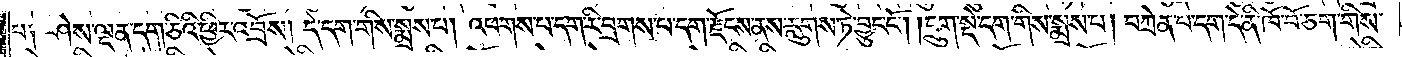པ༑ ཤེས་ལྡན་དག་ཅིའི་ཕྱིར་འབྲོས། དེ་དག་གིས་སྨྲས་པ། འཕགས་པ་དག་རི་བྲགས་པ་དག་རྫོངས་ནས་རླུགས་ཏེ་བྱུང་ངོ༌། །དྲུག་སྡེ་དག་གིས་སྨྲས་པ། བཀྲེན་པ་དག་དེ་ནི་ཁོ་བོ་ཅག་གིས་
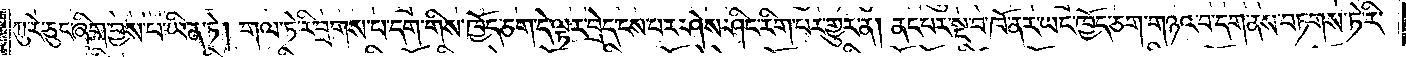ཀུ་རེ་ཅུང་ཞིག་བྱས་པ་ཡིན་ཏེ། གལ་ཏེ་རི་བྲགས་པ་དག་གིས་ཁྱོད་ཅག་དེ་ལྟར་བྲེད་ངས་པར་ཤེས་ཤིང་རིག་པར་གྱུར་ན། ནང་པར་སྔ་བ་ཁོ་ནར་ཡང་ཁྱོད་ཅག་གཉའ་བ་དག་ནས་བཏགས་ཏེ་རི་
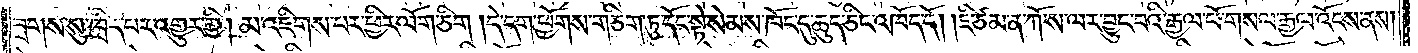བྲགས་སུ་ཁྲིད་པར་འགྱུར་གྱི། མ་འཇིགས་པར་ཕྱིར་ལོག་ཅིག །དེ་དག་ཕྱོགས་གཅིག་ཏུ་དོང་སྟེ་སེམས་ཁོང་དུ་ཆུད་ཅིང་འཁོད་དོ། །ཇི་ཙམ་ན་ཀོ་ས་ལར་བྱུང་བའི་རྒྱལ་པོ་གསལ་རྒྱལ་འོངས་ནས།
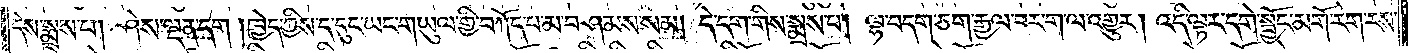དེས་སྨྲས་པ། ཤེས་ལྡན་དག །ཁྱེད་ཀྱིས་ད་དུང་ཡང་གཡུལ་གྱི་བཀོད་པ་མ་བཤམས་སམ། དེ་དག་གིས་སྨྲས་པ། ལྷ་བདག་ཅག་རྒྱལ་བར་ག་ལ་འགྱུར། འདི་ལྟར་དགེ་སྦྱོང་མགོ་རེག་རས་
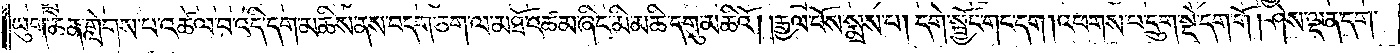ཡུག་ཆེན་གླེགས་པ་འཚལ་བ་འདི་དག་མཆིས་ནས་བདག་ཅག་ལ་མཐོ་འཚམ་ཞིང་མི་མཆི་དགུ་མཆིའོ། །རྒྱལ་པོས་སྨྲས་པ། དགེ་སྦྱོང་གང་དག །འཕགས་པ་དྲུག་སྡེ་དག་གོ །ཤེས་ལྡན་དག་
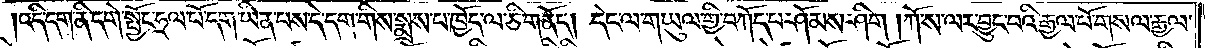འདི་དག་ནི་དགེ་སྦྱོང་ཧྲལ་པོ་དག་ཡིན་པས་དེ་དག་གིས་སྨྲས་པ་ཁྱོད་ལ་ཅི་གནོད། དེང་ལ་གཡུལ་གྱི་བཀོད་པ་ཤོམས་ཤིག །ཀོ་ས་ལར་བྱུང་བའི་རྒྱལ་པོ་གསལ་རྒྱལ་
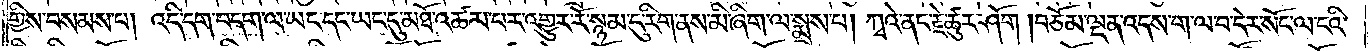གྱིས་བསམས་པ། འདི་དག་བདག་ལ་ཡང་དང་ཡང་དུ་མཐོ་འཚམ་པར་འགྱུར་རོ་སྙམ་དུ་རིག་ནས་མི་ཞིག་ལ་སྨྲས་པ། ཀྭའི་ནང་རྗེ་ཆུར་ཤོག །བཅོམ་ལྡན་འདས་ག་ལ་བ་དེར་སོང་ལ་ངའི་
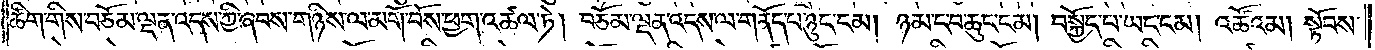ཚིག་གིས་བཅོམ་ལྡན་འདས་ཀྱི་ཞབས་གཉིས་ལ་མགོ་བོས་ཕྱག་འཚལ་ཏེ། བཅོམ་ལྡན་འདས་ལ་གནོད་པ་ཉུང་ངམ། ཉམ་ང་བ་ཆུང་ངམ། བསྐྱོད་པ་ཡང་ངམ། འཚོའམ། སྟོབས་
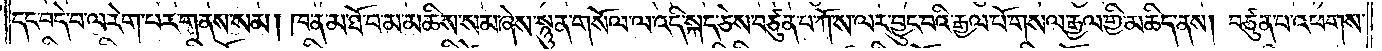དང་བདེ་བ་ལ་རེག་པར་གནས་སམ། ཁ་ན་མ་ཐོ་བ་མ་མཆིས་སམ་ཞེས་སྙུན་གསོལ་ལ་འདི་སྐད་ཅེས་བཙུན་པ་ཀོ་ས་ལར་བྱུང་བའི་རྒྱལ་པོ་གསལ་རྒྱལ་གྱི་མཆིད་ནས། བཙུན་པ་འཕགས་
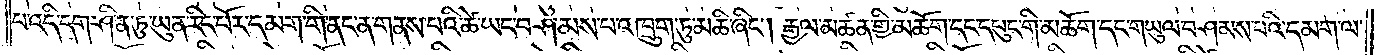པ་འདི་དག་ཤིན་ཏུ་ཡུན་རིང་པོར་དམག་གི་ནང་ན་གནས་པའི་ཚེ་ཡང་བཤམས་པ་འཁྲུག་ཏུ་མཆི་ཞིང༌། རྒྱལ་མཚན་གྱི་མཆོག་དང་དཔུང་གི་མཆོག་དང་གཡུལ་བཤམས་པའི་དམག་ལ་
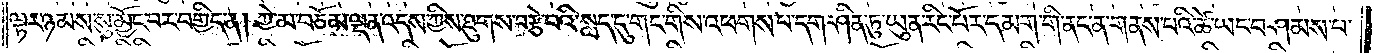ལྟར་ཉམས་སུ་མྱོང་བར་བགྱིད་ན། ཀྱེ་མ་བཅོམ་ལྡན་འདས་ཀྱིས་ཐུགས་བརྩེ་བའི་སླད་དུ་གང་གིས་འཕགས་པ་དག་ཤིན་ཏུ་ཡུན་རིང་པོར་དམག་གི་ནང་ན་གནས་པའི་ཚེ་ཡང་བཤམས་པ་
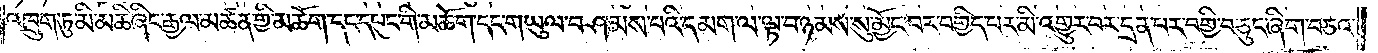འཁྲུག་ཏུ་མི་མཆི་ཞིང་རྒྱལ་མཚན་གྱི་མཆོག་དང་དཔུང་གི་མཆོག་དང་གཡུལ་བཤམས་པའི་དམག་ལ་ལྟ་བ་ཉམས་སུ་མྱོང་བར་བགྱིད་པར་མི་འགྱུར་བར་དྲན་པར་བགྱི་བ་ཅུང་ཞིག་བཅའ་
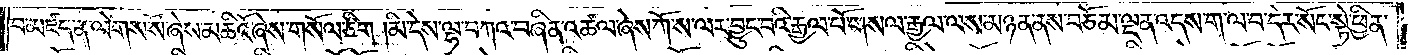བ་མཛད་ན་ལེགས་སོ་ཞེས་མཆིའོ་ཞེས་གསོལ་ཅིག །མི་དེས་ལྷ་བཀའ་བཞིན་འཚལ་ཞེས་གོ་ས་ལར་བྱུང་བའི་རྒྱལ་པོ་གསལ་རྒྱལ་ལས་མཉན་ནས་བཅོམ་ལྡན་འདས་ག་ལ་བ་དེར་སོང་སྟེ་ཕྱིན་
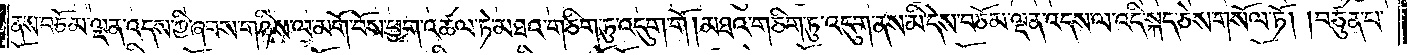ནས་བཅོམ་ལྡན་འདས་ཀྱི་ཞབས་གཉིས་ལ་མགོ་བོས་ཕྱག་འཚལ་ཏེ་མཐའ་གཅིག་ཏུ་འདུག་གོ །མཐའ་གཅིག་ཏུ་འདུག་ནས་མི་དེས་བཅོམ་ལྡན་འདས་ལ་འདི་སྐད་ཅེས་གསོལ་ཏོ། །བཙུན་པ་
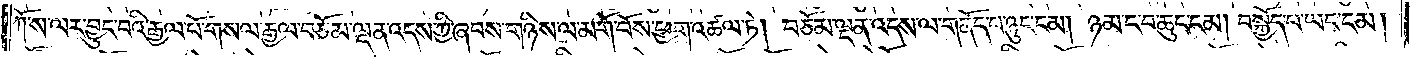ཀོ་ས་ལར་བྱུང་བའི་རྒྱལ་པོ་གསལ་རྒྱལ་བཅོམ་ལྡན་འདས་ཀྱི་ཞབས་གཉིས་ལ་མགོ་བོས་ཕྱག་འཚལ་ཏེ། བཅོམ་ལྡན་འདས་ལ་གནོད་པ་ཉུང་ངམ། ཉམ་ང་བ་ཆུང་ངམ། བསྐྱོད་པ་ཡང་ངམ།
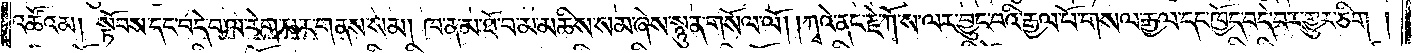འཚོའམ། སྟོབས་དང་བདེ་བ་ལ་རེག་པར་གནས་སམ། ཁ་ན་མ་ཐོ་བ་མ་མཆིས་སམ་ཞེས་སྙུན་གསོལ་ལོ། །ཀྭའེ་ནང་རྗེ་ཀོ་ས་ལར་བྱུང་བའི་རྒྱལ་པོ་གསལ་རྒྱལ་དང་ཁྱོད་བདེ་བར་གྱུར་ཅིག །
